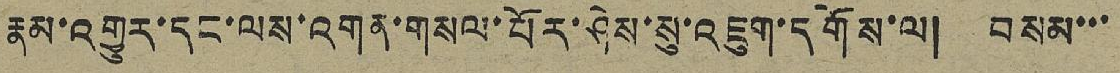རྣམ་འགྱུར་དང་ལས་འགན་གསལ་པོར་ཤེས་སུ་འཇུག་དགོས་ལ། བསམ་་་
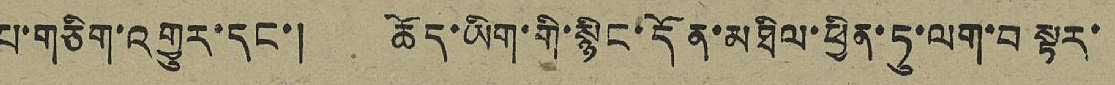པ་གཅིག་འགྱུར་དང་། ཆོད་ཡིག་གི་སྙིང་དོན་མཐིལ་ཕྱིན་ཏུ་ལག་བསྟར་
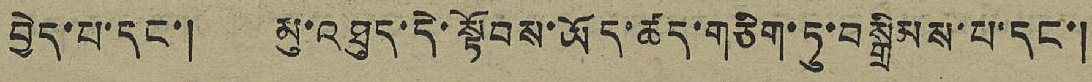བྱེད་པ་དང་། མུ་འཐུད་དེ་སྟོབས་ཡོད་ཚད་གཅིག་ཏུ་བསྒྲིམས་པ་དང་།
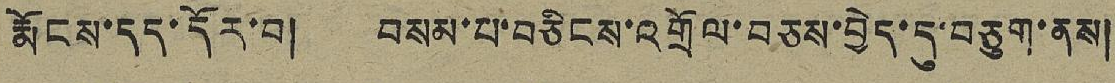རྨོངས་དད་དོར་བ། བསམ་པ་བཅིངས་འགྲོལ་བཅས་བྱེད་དུ་བཅུག་ནས།
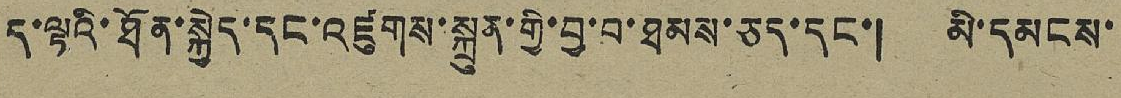ད་ལྟའི་ཐོན་སྐྱེད་དང་བཛུགས་སྐྲུན་གྱི་བྱ་བ་ཐམས་ཅད་དང་། མི་དམངས་
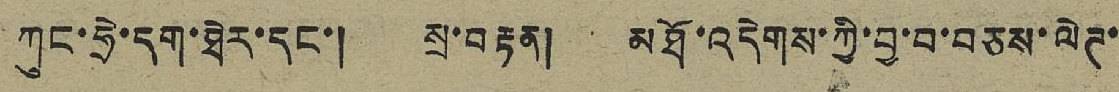ཀུང་ཧྲེ་དག་ཐེར་དང་། སྲ་བརྟན། མཐོ་འདེགས་ཀྱི་བྱ་བ་བཅས་ལེཊ་
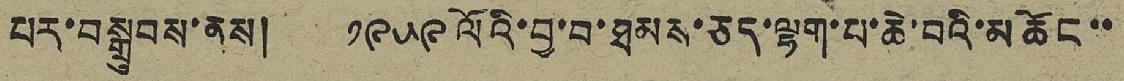པར་བསྒྲུབས་ནས། ༡༩༥༩ ལོའི་བྱ་བ་ཐམས་ཅད་ལྷག་པ་ཆེ་བའི་མཆོང་་
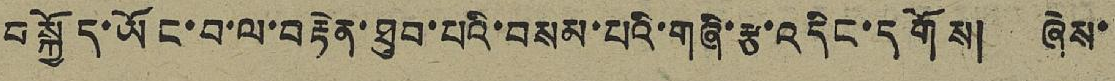བསྐྱོད་ཡོང་བ་ལ་བརྟེན་ཐུབ་པའི་བསམ་པའི་གཞི་རྩ་འདིང་དགོས། ཞེས་
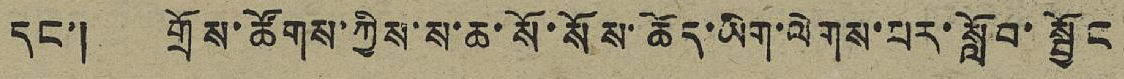དང་། གྲོས་ཚོགས་ཀྱིས་ས་ཆ་སོ་སོས་ཆོད་ཡིག་ལེགས་པར་སློབ་སྦྱོང
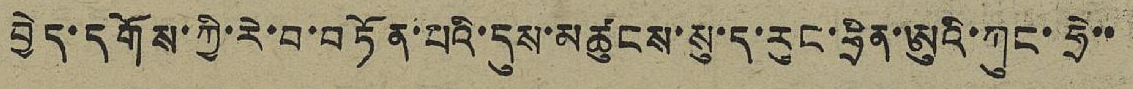བྱེད་དགོས་ཀྱི་རེ་བ་བཏོན་པའི་དུས་མཚུངས་སུ་ད་རུང་ཧྲིན་ཨུའི་ཀུང་ཧྲེ་་
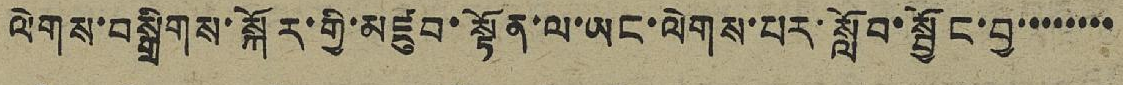ལེགས་བསྒྲིགས་སྐོར་གྱི་མཛུབ་སྟོན་ལ་ཡང་ལེགས་པར་སློབ་སྦྱོང་བྱ་་་་་་་་
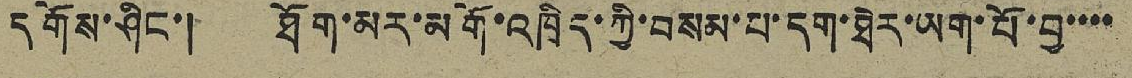དགོས་ཤིང་། ཐོག་མར་མགོ་འཁྲིད་ཀྱི་བསམ་པ་དག་ཐེར་ཡག་པོ་བྱ་་་་
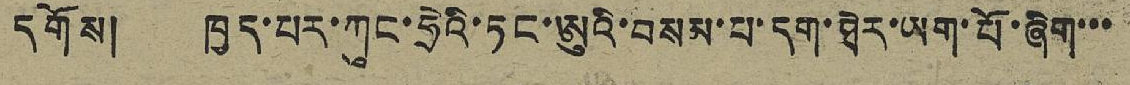དགོས། ཁྱད་པར་ཀུང་ཧྲེའི་ཏང་ཨུའི་བསམ་པ་དག་ཐེར་ཡག་པོ་ཞིག་་་
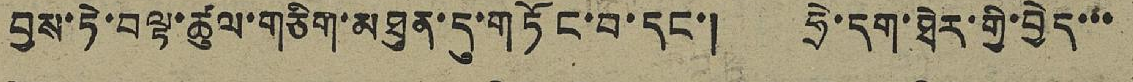བྱས་ཏེ་བལྟ་ཚུལ་གཅིག་མཐུན་དུ་གཏོང་བ་དང་། ཧྲེ་དག་ཐེར་གྱི་བྱེད་་་
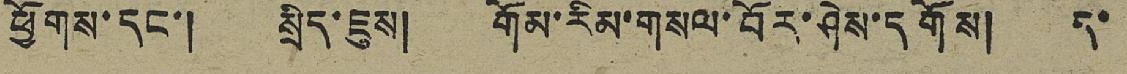ཕྱོགས་དང་། སྲིད་ཇུས། གོམ་རིམ་གསལ་བོར་ཤེས་དགོས། ད་
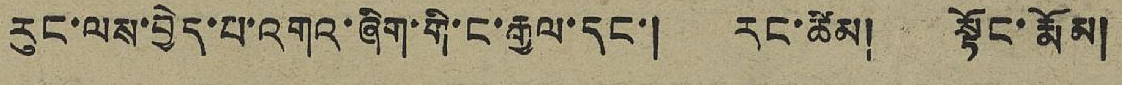རུང་ལས་བྱེད་པ་འགའ་ཞིག་གི་ང་རྒྱལ་དང་། རང་ཚེམ། སྟོང་རྨོམ།
